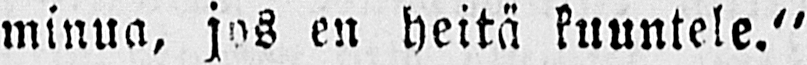minua, jos en heitä kuuntele."
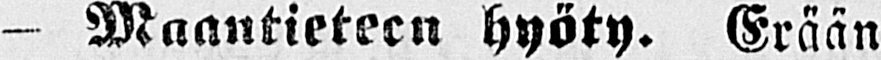— Maantieteen hyöty. Erään
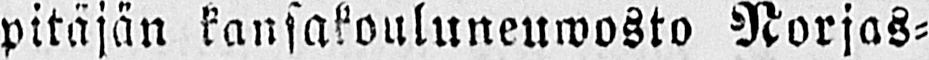pitäjän kansakouluneuwosto Norjas-
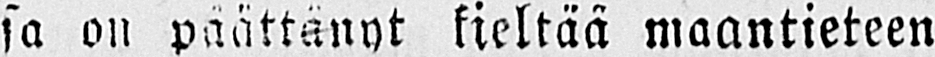sa on päättänyt kieltää maantieteen
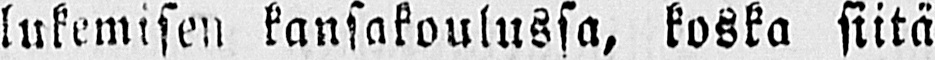lukemisen kansakoulussa, koska siitä
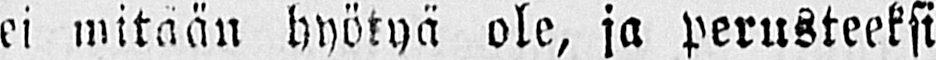ei mitään hyötyä ole, ja perusteeksi
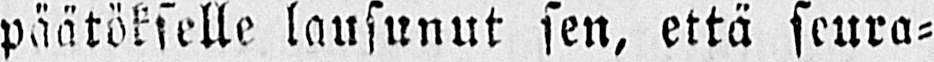päätökselle lausunut sen, että seura-
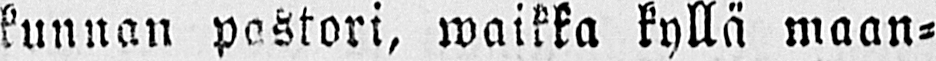kunnan pastori, waikka kyllä maan-
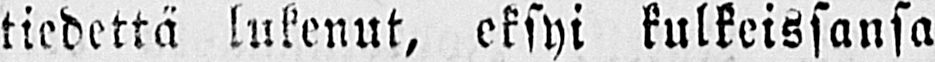tiedettä lukenut, eksyi kulteissansa
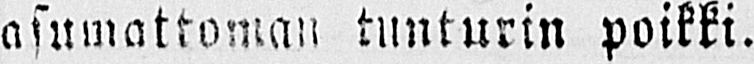asumattoman tunturin poikki.
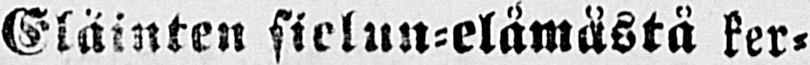-Eläinten s iel un-elämästä ker-
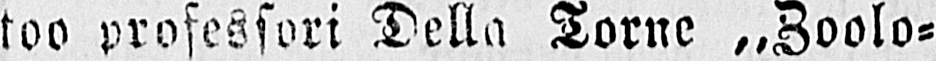too professori Della Torne ˶Zoolo-
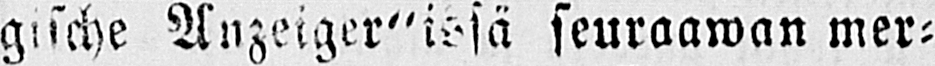gische Anzeiger"issä seuraawan mer-
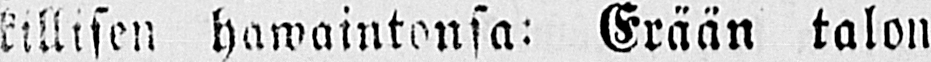killisen hawaintonsa: Erään talon
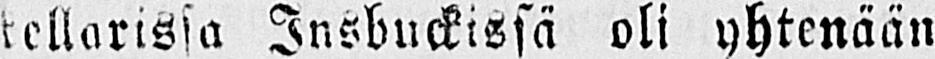kellarissa Insbuckissä oli yhtenään
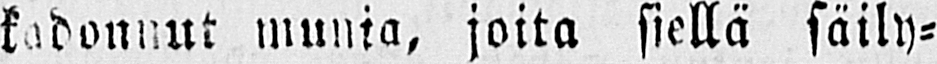kadonnut munia, joita siellä säily-
